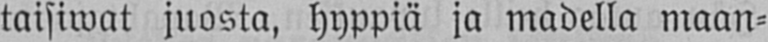taisiwat juosta, hyppiä ja madella maan-
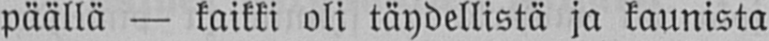päällä — kaikki oli täydellistä ja kaunista
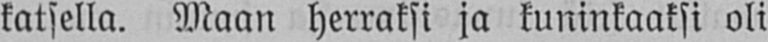katsella. Maan herraksi ja kuninkaaksi oli
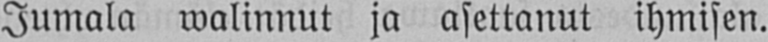Jumala walinnut ja asettanut ihmisen.
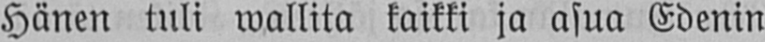Hänen tuli wallita kaikki ja asua Edenin
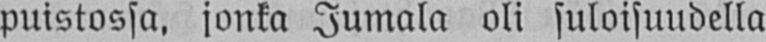puistossa, jonka Jumala oli suloisuudella
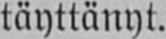täyttänyt.
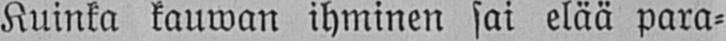Kuinka kauwan ihminen sai elää para-
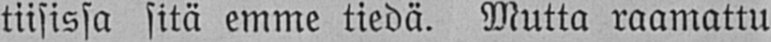tiisissa sitä emme tiedä. Mutta raamattu
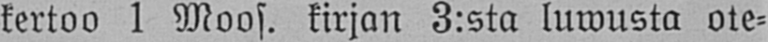kertoo 1 Moos. kirjan 3:sta luwusta ote-
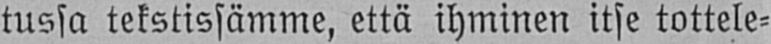tussa tekstissämme, että ihminen itse tottele-
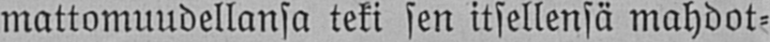mattomuudellansa teki sen itsellensä mahdot-
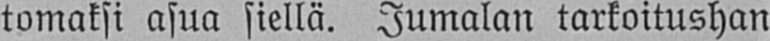tomaksi asua siellä. Jumalan tarkoitushan
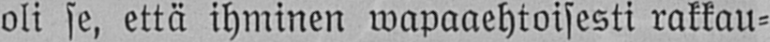oli se, että ihminen wapaaehtoisesti rakkau-
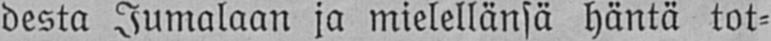desta Jumalaan ja mielellänsä häntä tot-
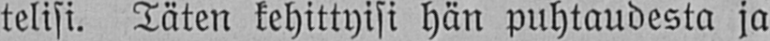telisi. Täten kehittyisi hän puhtaudesta ja
